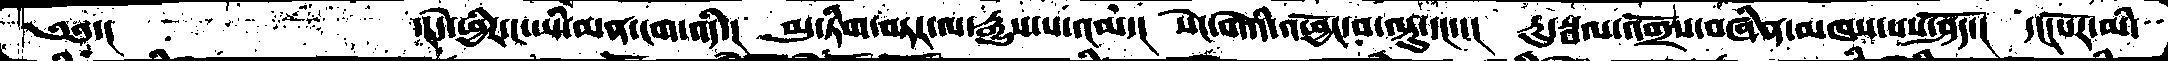༄༅་།         ་།དེ་ཕྱིར་ང་ཡི་མན་ངག་འདི་།  མུ་ཏིག་བཏར་ལ་རྒྱུས་པ་འམ་།  སེང་གེའི་འཕྱོང་བ་ལྟུ་དང་་།   རུ་སྦལ་འགྲོས་བཞིན་མཁས་པས་ཤོད་།  དང་པོར་མི་
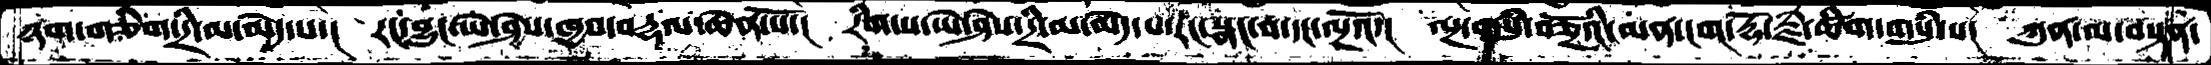ཉག་གཅིག་དྲི་མ་མེད་པ་།  རང་བྱུང་ཡེ་ཤེས་ཁྱབ་བརྡལ་ཆེན་པོ་།  རིག་པ་ཡེ་ཤེས་དྲི་མ་མེད་པ་རང་སྣང་བ་དང་ལྔའོ་།  ལྔ་གསུཾ་བཅྔོའི་མན་ངག་རྡོ་རྗེ་ཚིག་གསུཾ་པ།  ཀུན་ལ་བསྟན་
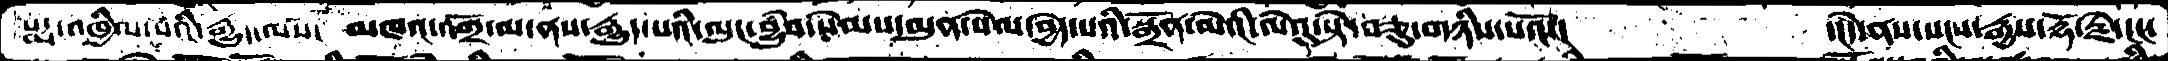པདྨ་འཁྱིལ་བའི་རྒྱུད་ལས།  མཁའ་འགྲོ་མ་ནས་རྒྱུད་པའི་ལུང་བྱུཾབ་སེམས་མུན་སེལ་བྱེད་པའི་སྒྲོནམེའི་ལེའུ་སྟེ་བཅུ་གཉིས་པའོ་།      ་།དེ་ནས་སངས་རྒྱས་རྡོ་རྗེ་ངང་
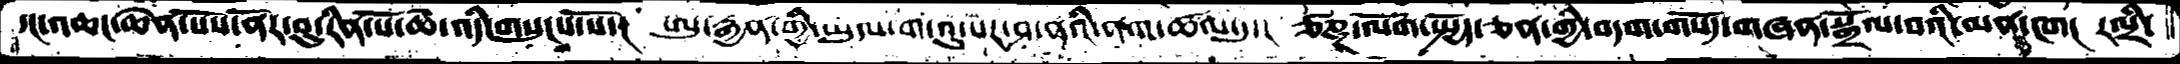དང་འཆང་ཆེན་པོས་ནོར་བུ་རིན་པོ་ཆེ་འདི་གསུངས་སོ་།  ཨུ་རྒྱན་གྱི་ཡུལ་ག་འུ་པར་ཤ་ནའི་ནག་ཚལ་དུ་།  ཙཎྜ་ལོག་སྤྱོད་ཅན་གྱི་བདག་གསོད་གཞན་སྒྲོལ་བའི་མན་ངག།  རལྲི་
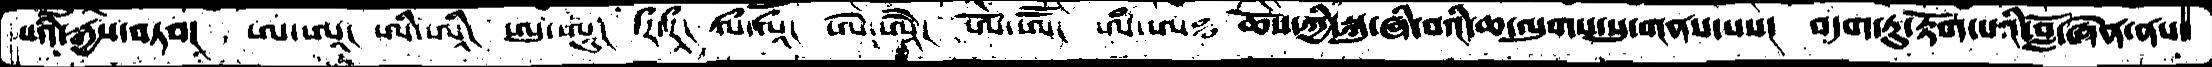པའི་རྒྱས་བཏབ།  ཨ་ཨཱ།  ཨི་ཨཱི།  ཨུ་ཨཱུ།  རྀ་རཱྀ།  ལྀ་ལཱྀ།  ཨེ་ཨཱཻ།  ཨོ་ཨཽ།  ཨཾ་ཨ༔  ཆོས་ཀྱི་སྐུ་ཞི་བའི་ཆ་ལུགས་སུ་གནས་པས།  བདག་ཏུ་རྟོག་པའི་བློ་ཞེན་ནས་
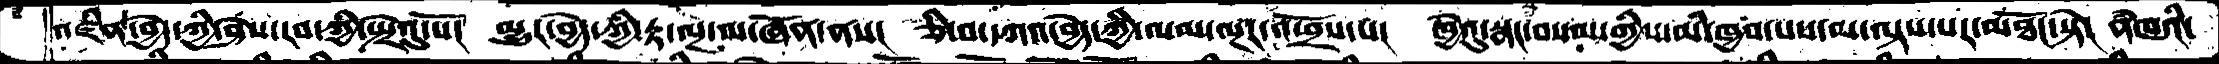འཛིན་བྱེད་ཀྱི་ཤེས་རབ་ཀྱི་སྤྲེའུ་སོ།  མྱུར་བྱེད་ཀྱི་རྟ་ལྔ་མ་ཞོན་ནས།  ཅི་བ་བཀའ་བྱེད་ཀྱི་ལམ་ལྔར་འཕྲོས་པ།  ཁྱེའུ་སྣང་བསམ་གྱིས་མི་ཁྱབ་པས་མ་ལྟས་པར་མཐོང་སྟེ།  ནཾཁའི་
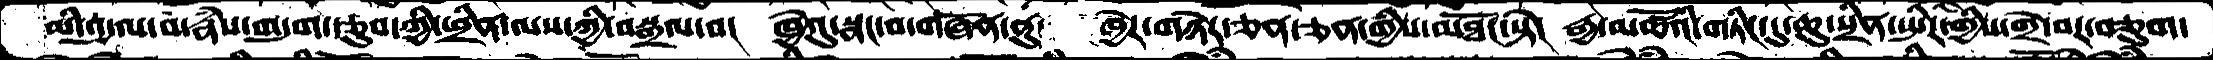མི་འདུལ་བ་རྣཾས་གདུག་རྩུབ་ཀྱི་ཕྲིན་ལས་ཀྱི་བསྒྲལ་བ།  ཁྱེའུ་སྣང་བ་གཞོན་ནུ།  ཁྱེར་གཉེར་ཅན་ཅན་གྱིས་མཐོང་སྟེ།  རྒྱ་མཚོའི་གཏིང་དུ་ཆུ་སྲིན་སྤིར་གྱིས་གྲེ་བར་བཅུག་
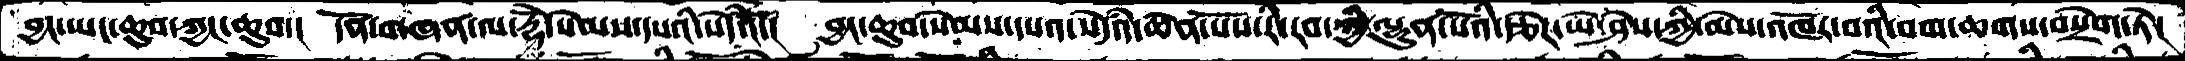བྱང་ཡང་ཆུབ་ཀྱང་ཆུབ་།  དོན་གཞན་ལ་རྡོེ་སེམས་དཔའི་སེདཾའོ་།  བྱང་ཆུབ་སེམས་དཔའ་སེདཾའ་ཆེན་པོས་རི་རབ་ཀྱི་ལྷུན་པོའི་རྩེར་ཡེ་ཤེས་ཀྱི་མེས་འཁོར་བའི་བག་ཆགས་བསྲེག་ཏེ།
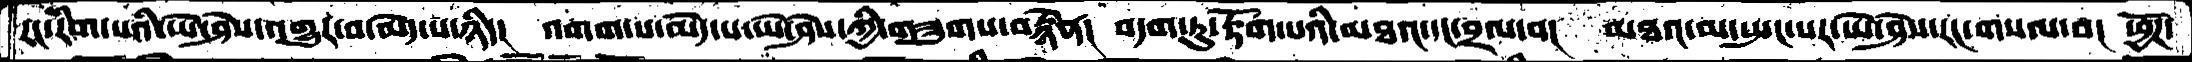རང་རིག་པའི་ཡེ་ཤེས་འགྱུར་བ་མེད་པ་ཉིད།  འགག་པ་མེད་པ་ཡེ་ཤེས་ཀྱི་གཟུགས་བརྙེན།  བདག་ཏུ་རྟོག་པའི་མཐའ་དང་བྲལ་བ།  མཐའ་མ་སྤང་པར་ཡེ་ཤེས་རང་གསལ་བ།  ཕྱོཌ་
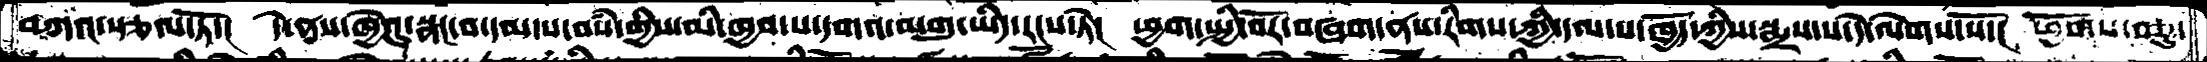བཀའ་སྩལ་ཏོ་།  དེ་ནས་ཁྱེའུ་སྣང་བ་དམ་པ་བསཾ་གྱིས་མི་ཁྱབ་པ་དགའ་མགུ་ཡིད་རངས་ཏེ།  ཕྱག་སྤྱི་བོར་བཞག་ནས་རིགས་ཀྱི་དམ་པ་ཁྱོད་ཀྱིས་སྨྲས་པ་དེ་ལེགས་སོ་།  ཕྱོགས་བཅུ་
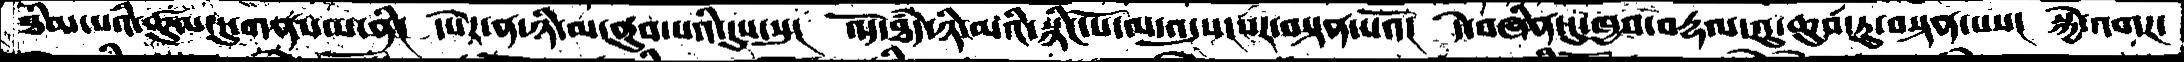ཐིམ་པའི་ཚུལ་དུ་གནས་པ་ནི།  དཔེར་ན་ཉི་མ་ནུབ་པའི་དུས་སུ།  འོད་ཐདཾ་ཉི་མའི་སྙིང་པོ་མ་འདུས།པར་བསྟན་པའོ།  དེ་བཞིན་དུ་ཁྱབ་བརྡལ་འུ་ཆུབ་ཏུ་བསྟན་པས།  སྐྱེ་འགཌ་
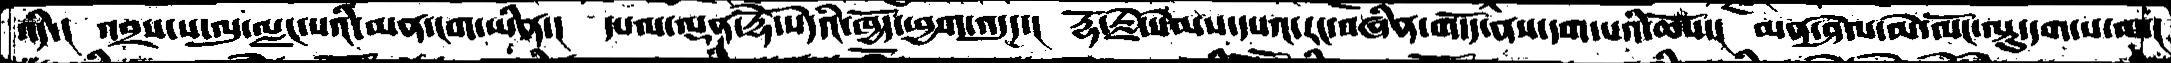འདི་།  འབྲས་ས་ལུ་ལྗང་པའི་མན་ངག་ཡིན་།  དཔལ་ལྡན་རྡོེ་སེཾདའ་ཁྱོད་ཕྱག་འདུད་།  རྡོ་རྗེ་སེམས་དཔའ་རང་བཞིན་གདོད་ནས་དག་པའི་ཆོས་།  མན་ཤེལ་མེ་ལོང་ལྟུ་དག་པ་ལ།
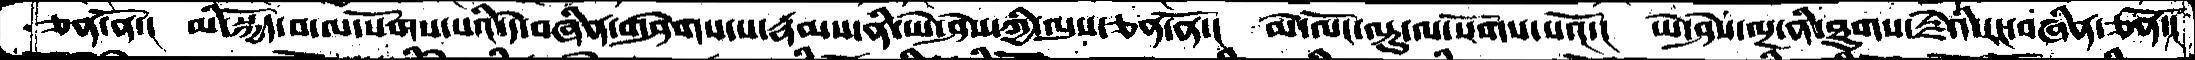ཅན་ནོ་།  མི་སྐྱོད་བ་ལ་སོགས་པའི་དེ་བཞིན་གཤེགས་པ་རྣམས་ནི་ཡེ་ཤེས་ཀྱི་ལུས་ཅན་ནོ་།  མེ་ལོང་ལྟུ་ལ་སོགས་པའོ་།  ཡེ་ཤེས་ལྔ་ནི་ཐུགས་རྗེའི་རང་བཞིན་ཅནོ་།
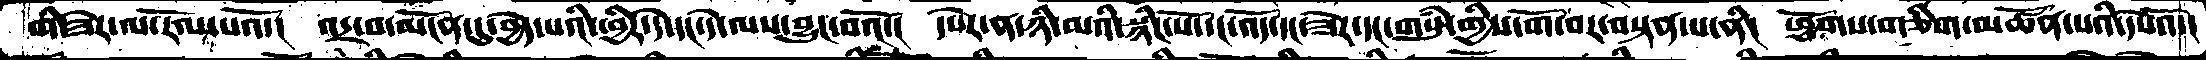གི་ཟེར་ལ་རོལ་པའོ་།  འདྲ་བ་མངོན་དུ་བྱེད་པའི་ཕྱིར་དེ་དང་དེ་ལས་བྱུང་བའོ་།  དཔེར་ན་ཉི་མའི་སྙིང་པོ་དང་འོད་དང་ཟེར་དང་གསུཾ་གྱིས་གོ་བར་བསྟན་པ་ནི།  ཕྱོགས་གཅིག་མཚོན་པའི་དཔེའོ་།
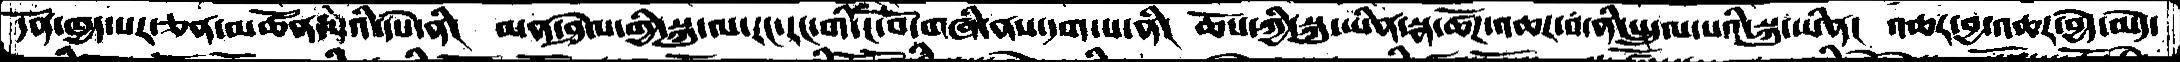དོན་ཁྱད་པར་ཅན་མཚོན་པའི་དཔེ་ནི།  མན་ཤེལ་གྱི་སྐུ་ལ་རང་རང་གི་ངོ་བོ་གཞི་ནས་དག་པ་ནི།  ཆོས་ཀྱི་སྐུ་ཡིན་སྣ་ཚོཌ་འཆར་བ་ནི་སྤྲུལ་པའི་སྐུ་ཡིན།  འཆར་བྱ་འཆར་བྱེད་མེད་
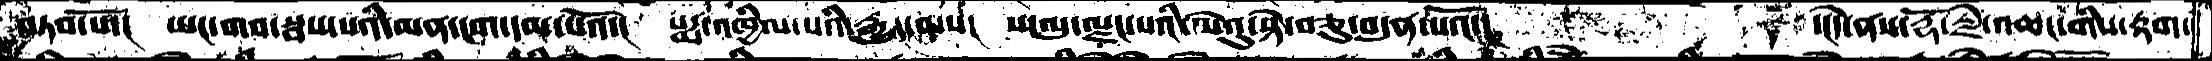བཏབ་སོ།  ཡང་གབ་སྦས་པའི་མན་ངག་དམ་པའོ་།  པདྨ་འཁྱིལ་པའི་རྒྱུད་ལས།  ས་ལུ་ལྗང་པའི་ལེའུ་སྟེ་བཅུ་བདུན་པའོ།།      ་།དེ་ནས་རྡོ་རྗེ་འཆང་གིས་རྟག་
